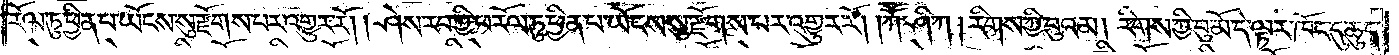རོལ་ཏུ་ཕྱིན་པ་ཡོངས་སུ་རྫོགས་པར་འགྱུར་རོ། །ཤེས་རབ་ཀྱི་ཕ་རོལ་ཏུ་ཕྱིན་པ་ཡོངས་སུ་རྫོགས་པར་འགྱུར་རོ། །ཀཽ་ཤི་ཀ། རིགས་ཀྱི་བུའམ། རིགས་ཀྱི་བུ་མོ་དེ་ལྟར་ཁོང་དུ་ཆུད་
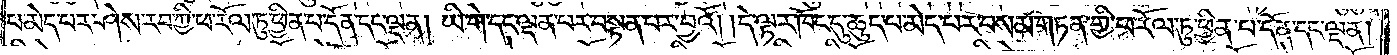པ་མེད་པར་ཤེས་རབ་ཀྱི་ཕ་རོལ་ཏུ་ཕྱིན་པ་དོན་དང་ལྡན། ཡི་གེ་དང་ལྡན་པར་བསྟན་པར་བྱའོ། །དེ་ལྟར་ཁོང་དུ་ཆུད་པ་མེད་པར་བསམ་གཏན་གྱི་ཕ་རོལ་ཏུ་ཕྱིན་པ་དོན་དང་ལྡན།
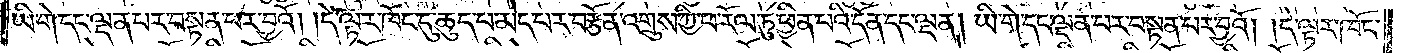ཡི་གེ་དང་ལྡན་པར་བསྟན་པར་བྱའོ། །དེ་ལྟར་ཁོང་དུ་ཆུད་པ་མེད་པར་བརྩོན་འགྲུས་ཀྱི་ཕ་རོལ་ཏུ་ཕྱིན་པའི་དོན་དང་ལྡན། ཡི་གེ་དང་ལྡན་པར་བསྟན་པར་བྱའོ། །དེ་ལྟར་ཁོང་
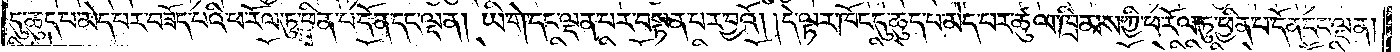དུ་ཆུད་པ་མེད་པར་བཟོད་པའི་ཕ་རོལ་ཏུ་ཕྱིན་པ་དོན་དང་ལྡན། ཡི་གེ་དང་ལྡན་པར་བསྟན་པར་བྱའོ། །དེ་ལྟར་ཁོང་དུ་ཆུད་པ་མེད་པར་ཚུལ་ཁྲིམས་ཀྱི་ཕ་རོལ་ཏུ་ཕྱིན་པ་དོན་དང་ལྡན།
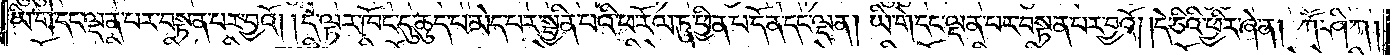ཡི་གེ་དང་ལྡན་པར་བསྟན་པར་བྱའོ། །དེ་ལྟར་ཁོང་དུ་ཆུད་པ་མེད་པར་སྦྱིན་པའི་ཕ་རོལ་ཏུ་ཕྱིན་པ་དོན་དང་ལྡན། ཡི་གེ་དང་ལྡན་པར་བསྟན་པར་བྱའོ། །དེ་ཅིའི་ཕྱིར་ཞེ་ན། ཀཽ་ཤི་ཀ།
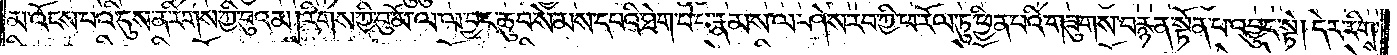མ་འོངས་པའི་དུས་ན་རིགས་ཀྱི་བུའམ། རིགས་ཀྱི་བུ་མོ་ལ་ལ་བྱང་ཆུབ་སེམས་དཔའི་ཐེག་པ་པ་རྣམས་ལ་ཤེས་རབ་ཀྱི་ཕ་རོལ་ཏུ་ཕྱིན་པའི་གཟུགས་བརྙན་སྟོན་པ་འབྱུང་སྟེ། དེར་རིགས་
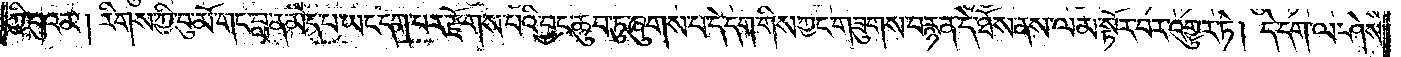ཀྱི་བུའམ། རིགས་ཀྱི་བུ་མོ་གང་བླ་ན་མེད་པ་ཡང་དག་པར་རྫོགས་པའི་བྱང་ཆུབ་ཏུ་ཞུགས་པ་དེ་དག་གིས་ཀྱང་གཟུགས་བརྙན་དེ་ཐོས་ནས་ལམ་སྟོར་བར་འགྱུར་ཏེ། དེ་དག་ལ་ཤེས་
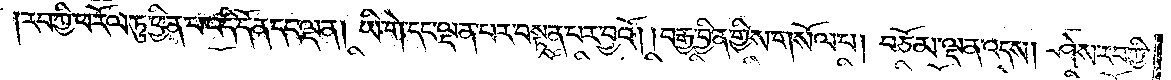རབ་ཀྱི་ཕ་རོལ་ཏུ་ཕྱིན་པ་འདི་དོན་དང་ལྡན། ཡི་གེ་དང་ལྡན་པར་བསྟན་པར་བྱའོ། །བརྒྱ་བྱིན་གྱིས་གསོལ་པ། བཅོམ་ལྡན་འདས། ཤེས་རབ་ཀྱི་
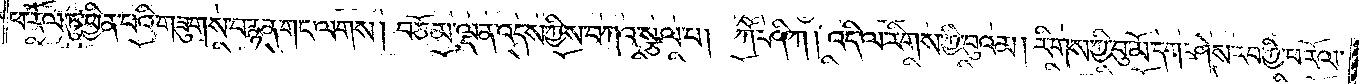ཕ་རོལ་ཏུ་ཕྱིན་པའི་གཟུགས་བརྙན་གང་ལགས། བཅོམ་ལྡན་འདས་ཀྱིས་བཀའ་སྩལ་པ། ཀཽ་ཤི་ཀ། འདི་ལ་རིགས་ཀྱི་བུའམ། རིགས་ཀྱི་བུ་མོ་དག་ཤེས་རབ་ཀྱི་ཕ་རོལ་
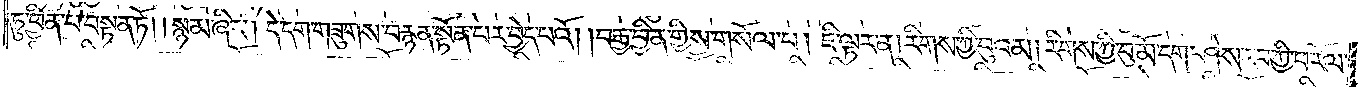ཏུ་ཕྱིན་པ་བསྟན་ཏོ། །སྙམ་ཞིང༌། དེ་དག་གཟུགས་བརྙན་སྟོན་པར་བྱེད་པའོ། །བརྒྱ་བྱིན་གྱིས་གསོལ་པ། ཇི་ལྟར་ན། རིགས་ཀྱི་བུའམ། རིགས་ཀྱི་བུ་མོ་དག་ཤེས་རབ་ཀྱི་ཕ་རོལ་
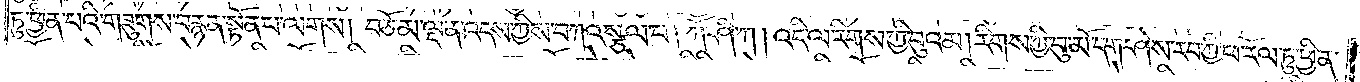ཏུ་ཕྱིན་པའི་གཟུགས་བརྙན་སྟོན་པ་ལགས། བཅོམ་ལྡན་འདས་ཀྱིས་བཀའ་སྩལ་པ། ཀཽ་ཤི་ཀ། འདི་ལ་རིགས་ཀྱི་བུའམ། རིགས་ཀྱི་བུ་མོ་དག་ཤེས་རབ་ཀྱི་ཕ་རོལ་ཏུ་ཕྱིན་
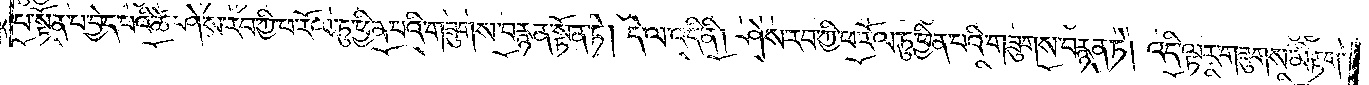པ་སྟོན་པ་བྱེད་པའི་ཚེ་ཤེས་རབ་ཀྱི་ཕ་རོལ་ཏུ་ཕྱིན་པའི་གཟུགས་བརྙན་སྟོན་ཏེ། དེ་ལ་འདི་ནི། ཤེས་རབ་ཀྱི་ཕ་རོལ་ཏུ་ཕྱིན་པའི་གཟུགས་བརྙན་ཏེ། འདི་ལྟར་གཟུགས་མི་རྟག་
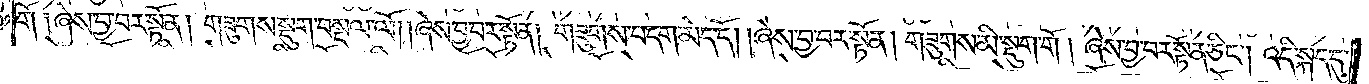གོ༑ ཞེས་བྱ་བར་སྟོན། གཟུགས་སྡུག་བསྔལ་ལོ། །ཞེས་བྱ་བར་སྟོན། གཟུགས་བདག་མེད་དོ། །ཞེས་བྱ་བར་སྟོན། གཟུགས་མི་སྡུག་གོ། ཞེས་བྱ་བར་སྟོན་ཅིང༌། འདི་སྐད་དུ་
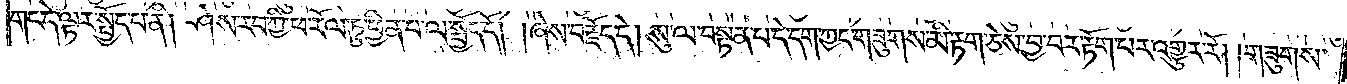གང་དེ་ལྟར་སྤྱོད་པ་ནི། ཤེས་རབ་ཀྱི་ཕ་རོལ་ཏུ་ཕྱིན་པ་ལ་སྤྱོད་དོ། །ཞེས་བརྗོད་དེ། སུ་ལ་བསྟན་པ་དེ་དག་ཀྱང་གཟུགས་མི་རྟག་ཅེས་བྱ་བར་རྟོག་པར་འགྱུར་རོ། །གཟུགས་
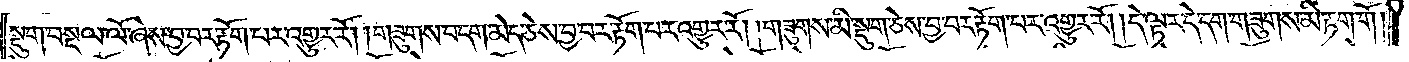སྡུག་བསྔལ་ལོ་ཞེས་བྱ་བར་རྟོག་པར་འགྱུར་རོ། །གཟུགས་བདག་མེད་ཅེས་བྱ་བར་རྟོག་པར་འགྱུར་རོ། །གཟུགས་མི་སྡུག་ཅེས་བྱ་བར་རྟོག་པར་འགྱུར་རོ། །དེ་ལྟར་དེ་དག་གཟུགས་མི་རྟག་གོ།
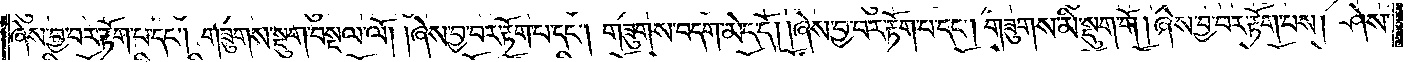ཞེས་བྱ་བར་རྟོག་པ་དང༌། གཟུགས་སྡུག་བསྔལ་ལོ། །ཞེས་བྱ་བར་རྟོག་པ་དང༌། གཟུགས་བདག་མེད་དོ། །ཞེས་བྱ་བར་རྟོག་པ་དང༌། གཟུགས་མི་སྡུག་གོ། ཞེས་བྱ་བར་རྟོག་པས། ཤེས་
